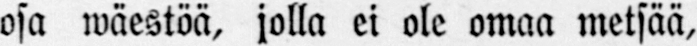osa wäestöä, jolla ei ole omaa metsää,
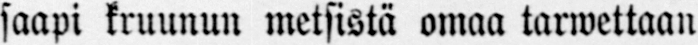saapi kruunun metsistä omaa tarwettaan
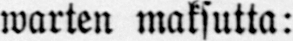warten maksutta:
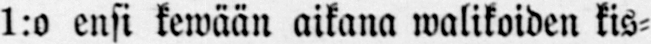1:o ensi kewään aikana walikoiden kis-
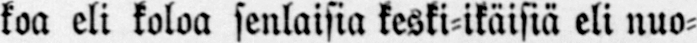koa eli koloa senlaisia keski-ikäisiä eli nuo-
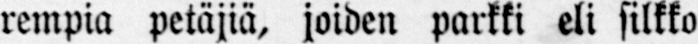rempia petäjiä, joiden parkki eli silkko
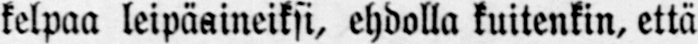kelpaa leipäaineiksi, ehdolla kuitenkin, että
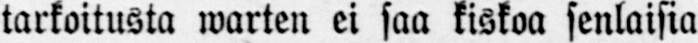tarkoitusta warten ei saa kiskoa senlaisia
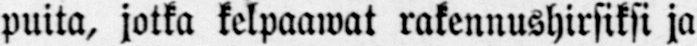puita, jotka kelpaawat rakennushirsiksi ja
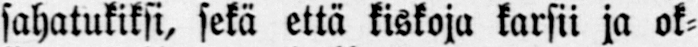sahatukiksi, sekä että kiskoja karsii ja ok-
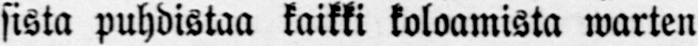sista puhdistaa kaikki koloamista warten
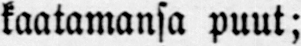kaatamansa puut;
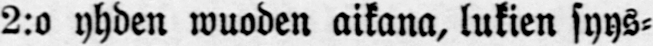2:o yhden wuoden aikana, lukien syys-
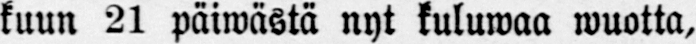kuun 21 päiwästä nyt kuluwaa wuotta,
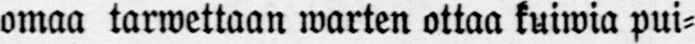omaa tarwettaan warten ottaa kuiwia pui-
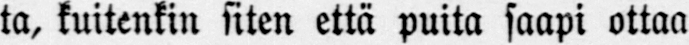ta, kuitenkin siten että puita saapi ottaa
